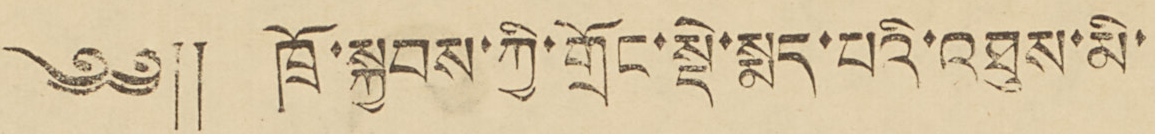༄༅༎ ཁྲོ་སྐྱབས་ཀྱི་གྲོང་སྡེ་སྨད་པའི་འཐུས་མི་
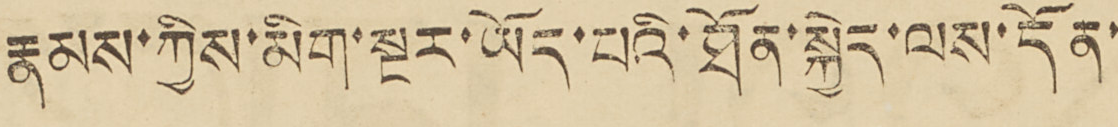རྣམས་ཀྱིས་མིག་སྔར་ཡོད་པའི་ཐོན་སྐྱེད་ལས་དོན་
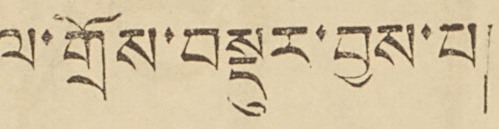ལ་གྲོས་བསྡུར་བྱས་པ།
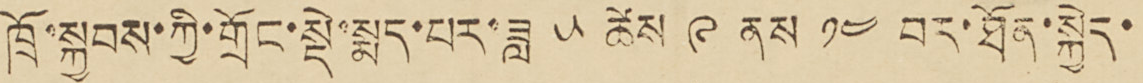ཁྲོ་སྐྱབས་ཀྱི་གྲོང་སྡེ་སྨད་པར་ཟླ ༥ ཚེས ༩ ནས ༡༤ བར་ཐོན་སྐྱེད་
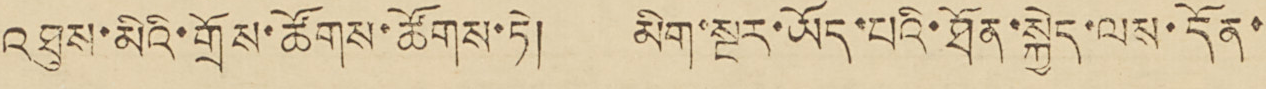འཐུས་མིའི་གྲོས་ཚོགས་ཚོགས་ཏེ། མིག་སྔར་ཡོད་པའི་ཐོན་སྐྱེད་ལས་དོན་
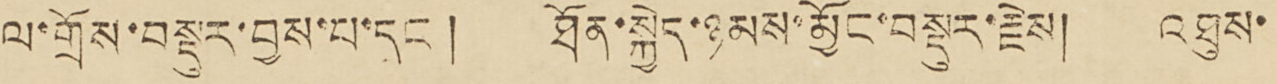ལ་གྲོས་བསྡུར་བྱས་པ་དང ། ཐོན་སྐྱེད་ཉམས་མྱོང་བསྡུར་རྗེས། འཐུས་
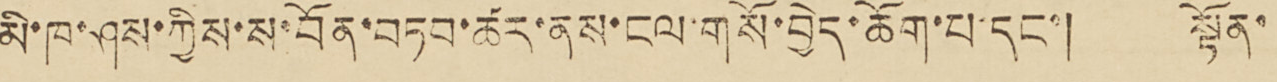མི་ཁ་ཤས་ཀྱིས་ས་བོན་བཏབ་ཚར་ནས་ངལ་གསོ་བྱེད་ཆོག་པ་དང་། སྟོན་
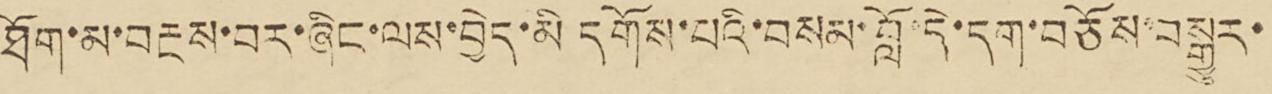ཐོག་མ་བརྔས་བར་ཞིང་ལས་བྱེད་མི དགོས་པའི་བསམ་བློ་དེ་དག་བཅོས་བསྒྱུར་
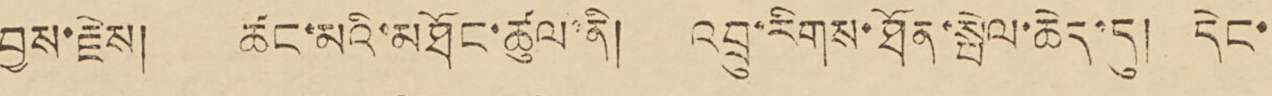བྱས་རྗེས། ཚང་མའི་མཐོན་ཚུལ་ནི། འབྲུ་རིགས་ཐོན་སྤེལ་ཆེད་དུ། དེང་
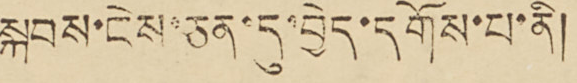སྐབས་ངེས་ཅན་དུ་བྱེད་དགོས་པ་ནི།
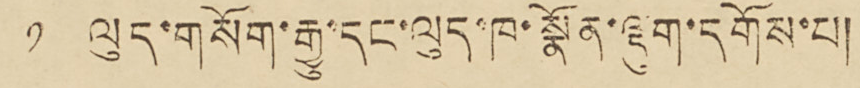༡ ལུད་གསོག་རྒྱུ་དང་ལུད་ཁ་སྣོན་ལྡུག་དགོས་པ།
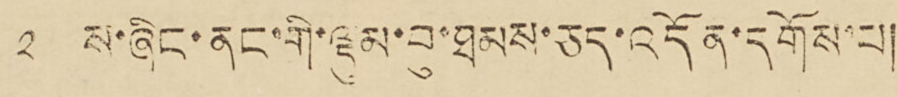༢ ས་ཞིང་ནང་གི་ལྡུམ་བུ་ཐམས་ཅད་འདོན་དགོས་པ།
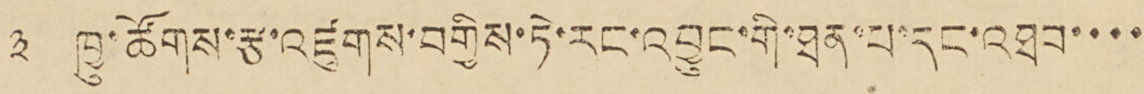༣ ཁྱུ་ཚོགས་རྩ་འཛུགས་བགྱིས་ཏེ་རང་འབྱུང་གི་ཐན་པ་དང་འཐབ་་་་
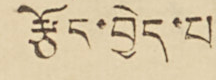རྩོད་བྱེད་པ།
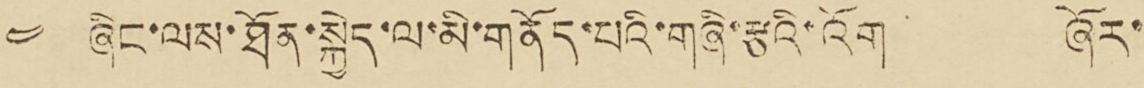༤ ཞིང་ལས་ཐོན་སྐྱེད་ལ་མི་གནོད་པའི་གཞི་རྩའི་འོག ཞོར་
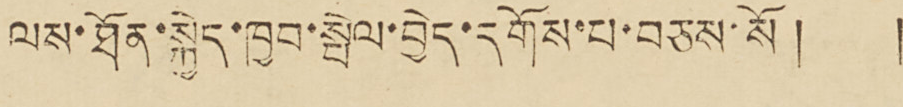ལས་ཐོན་སྐྱེད་ཁྱབ་སྤེལ་བྱེད་དགོས་པ་བཅས་སོ། །
